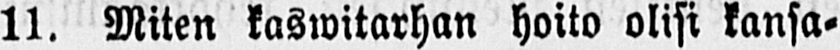11. Miten kaswitarhan hoito olisi kansa-
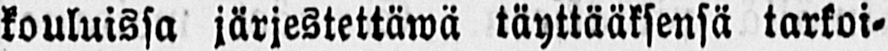kouluissa järjestettäwä täyttääksensä tarkoi-
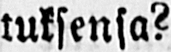tuksensa?
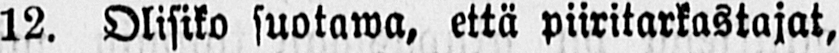12. Olisiko suotawa, että piiritarkastajat,
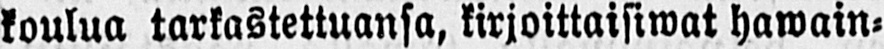koulua tarkastettuansa, kirjoittaisiwat hawain-
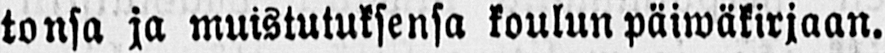tonsa ja muistutuksensa koulun päiwäkirjaan.
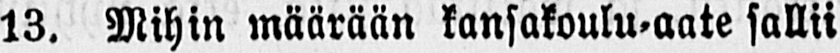13. Mihin määrään kansakoulu-aate sallii
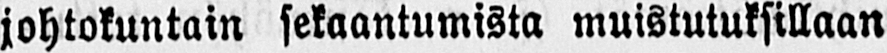johtokuntain sekaantumista muistutuksillaan
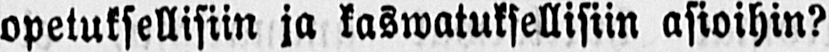opetuksellisiin ja kaswatuksellisiin asioihin?
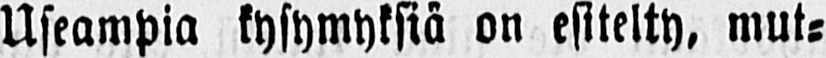Useampia kysymyksiä on esitelty, mut-
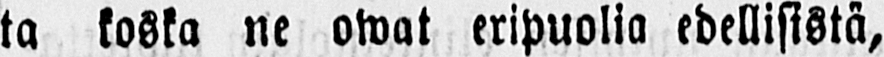ta koska ne owat eripuolia edellisistä,
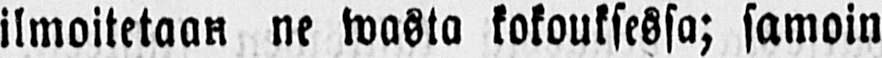ilmoitetaan ne wasta kokouksessa; samoin
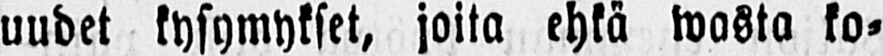uudet kysymykset, joita ehkä wasta ko-
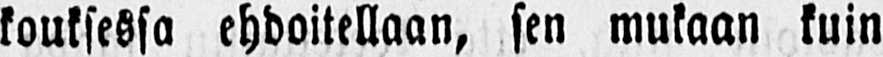kouksessa ehdoitellaan, sen mukaan kuin
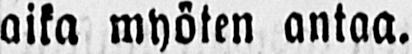aika myöten antaa.
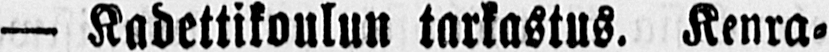— Kadettikoulun tarkastus. Kenra-
